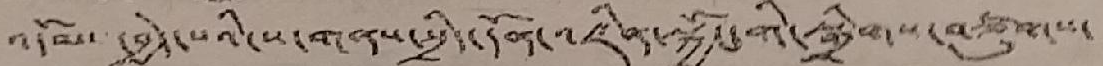འདོམ་ བྱེད་པའི་ས་གནས་སྲིད་དོན་འཛིན་སྐྱོང་གི་སྒྲིགས་བཙུགས་
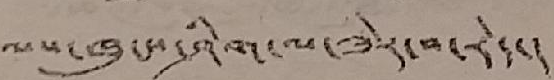ལས་ཁུངས་ཤིག་ལ་ཟེར་བ་རེད་།
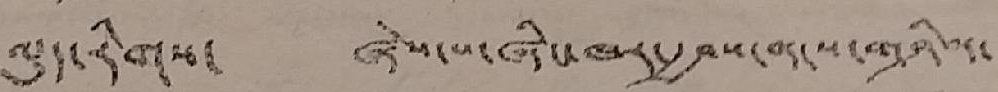ལུད་རིགས་ ཞེས་པ་ཞིང་ཁར་རྒྱབས་བདངས་གཤིར་
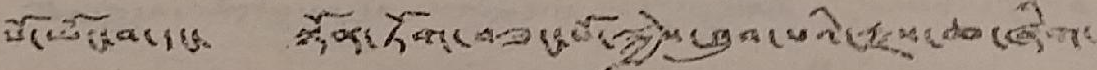པོ་ཡོང་བ་དང་ སྟོན་ཏོག་བཟང་པོ་སྐྱེས་ཐུབ་པའི་རྫས་ཆ་ཞིག་
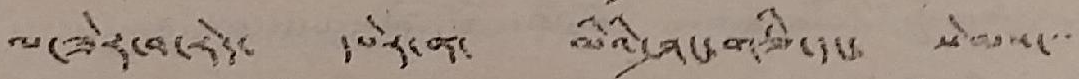ལ་ཟེར་བ་རེད་ དཔེར་ན་ མིའི་ཤང་གཅི་དང སེམས་་་་
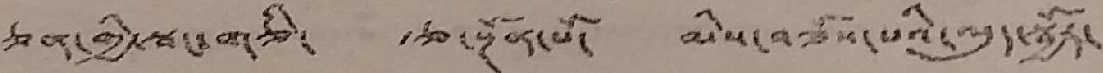ཅན་གྱི་སྦང་གཅི རྩ་སྔོན་པོ་ མིས་བཟོས་པའི་ལུད་སྦྱོར་
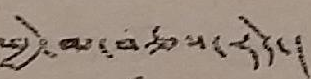ཕྱེ་མ་བཅས་རེད་།
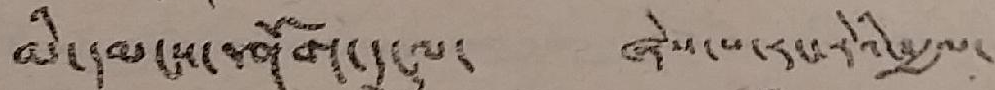མི་དམངས་ཤོག་དངུལ་ ཞེས་པ་རང་རེའི་རྒྱལ་
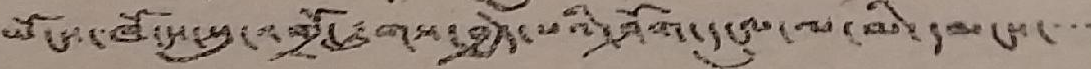ཡོངས་ཁོངས་སུ་འགྲོ་རྒྱུགས་བྱེད་པའི་ཤོག་དངུལ་ལ་མི་དམངས་་་་
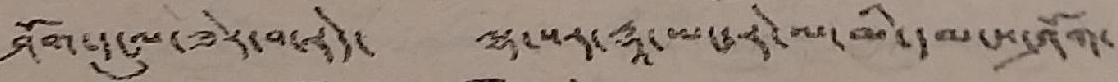ཤོག་དངུལ་ཟེར་བ་རེད་ ལྷ་སར་རྡཱ་ཡང་རེ་ལ་མི་དམངས་ཤོག་
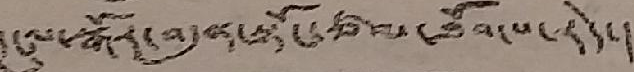དངུལ་སྒོར་བདུན་སྟོང་ཙམ་ཐོབ་པ་རེད་།
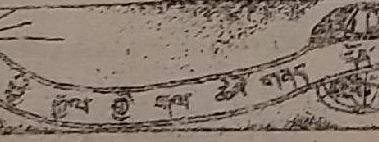ཕྱི་རྒྱལ་གྱི་གལ་ཆེའི་གནད་དོན་
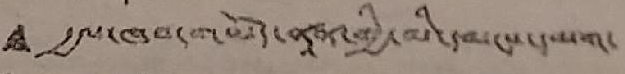• རྒྱལ་ཁབ་གཡོད་ནཱན་གཡི་མི་དམངས་དམག་
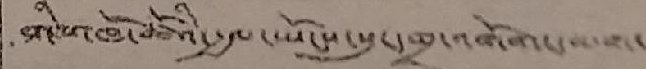གི་འཁོ་ཚོའི་རྒྱལ་ཡོངས་སུ་དགྲ་འགོག་དམག་
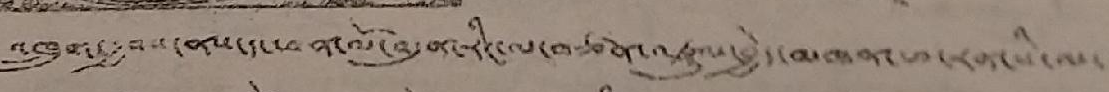འཁྲུག་རྒྱབས་ནས་ད་ཕན་ལོ་བདུན་རིང་ལ་བཙན་འཛུལ་བྱེད་མཁན་ཕ་རན་སི་ནས་
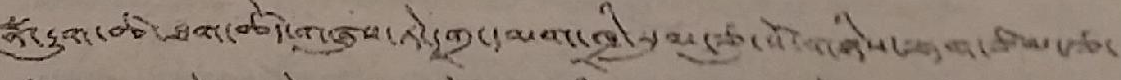སྣ་རྒྱུག་ཚ་ཐག་ཆོད་གཞུས་ཏེ་དགྲ་དམག་ཁྲི་སུམ་ཅུ་སོ་གཉིས་ལྷག་ཙམ་རྩ་
